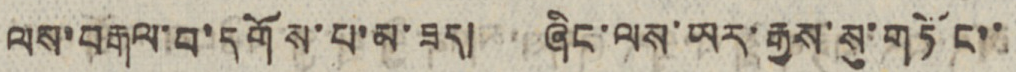ལས་བརྒལ་བ་དགོས་པ་མ་ཟད། ཞིང་ལས་ཡར་རྒྱས་སུ་གཏོང་་
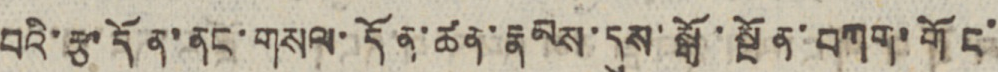པའི་རྩ་དོན་ནང་གསལ་དོན་ཚན་རྣམས་དུས་སྒོ་སྔོན་བཀག་གོང་
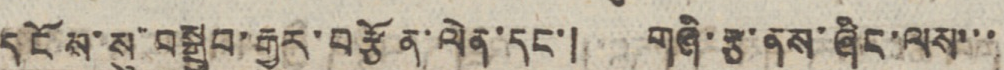དངོས་སུ་བསྒྲུབ་རྒྱུར་བརྩོན་ལེན་དང་། གཞི་རྩ་ནས་ཞིང་ལས་་་
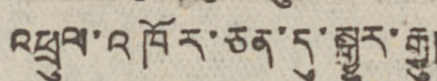འཕྲུལ་འཁོར་ཅན་དུ་སྒྱུར་རྒྱུ།
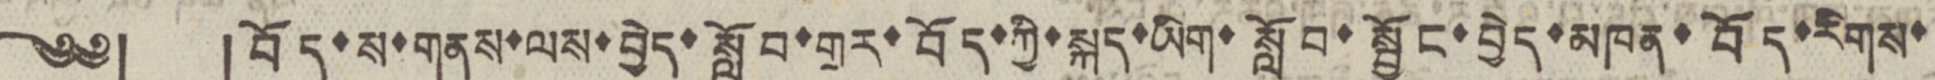༄༅། །བོད་ས་གནས་ལས་བྱེད་སློབ་གྲར་བོད་ཀྱི་སྐད་ཡིག་སློབ་སྦྱོང་བྱེད་མཁན་བོད་རིགས་
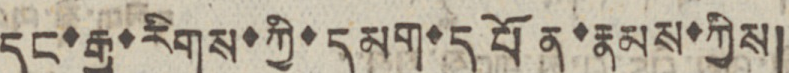དང་རྒྱ་རིགས་ཀྱི་དམག་དཔོན་རྣམས་ཀྱིས།
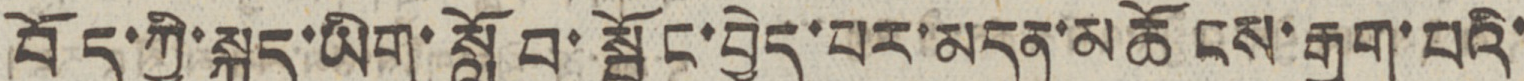བོད་ཀྱི་སྐད་ཡིག་སློབ་སྦྱོང་བྱེད་པར་མདུན་མཆོངས་རྒྱག་པའི་
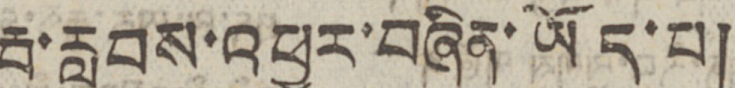རྦ་རླབས་འཕྱུར་བཞིན་ཡོད་པ།
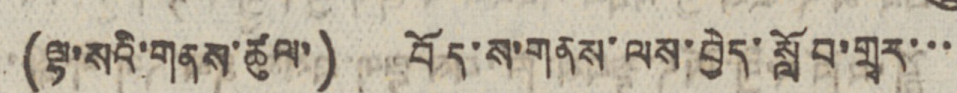(ལྷ་སའི་གནས་ཚུལ་) བོད་ས་གནས་ལས་བྱེད་སློབ་གྲྭར་་་
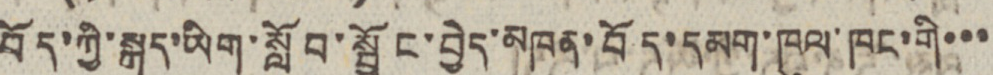བོད་ཀྱི་སྐད་ཡིག་སློབ་སྦྱོང་བྱེད་མཁན་བོད་དམག་ཁུལ་ཁང་གི་་་
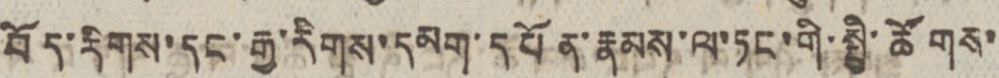བོད་རིགས་དང་རྒྱ་རིགས་དམག་དཔོན་རྣམས་ལ་ཏང་གི་སྤྱི་ཚོགས་
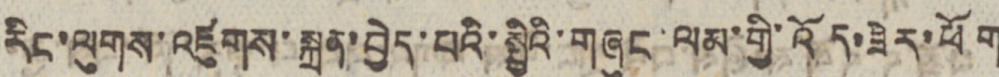རིང་ལུགས་འཛུགས་སྐྲུན་བྱེད་པའི་སྤྱིའི་གཞུང་ལམ་གྱི་འོད་ཟེར་ཕོག
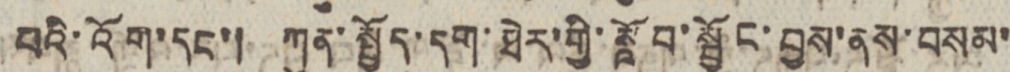པའི་འོག་དང་། ཀུན་སྤྱོད་དག་ཐེར་གྱི་སློབ་སྦྱོང་བྱས་ནས་བསམ་
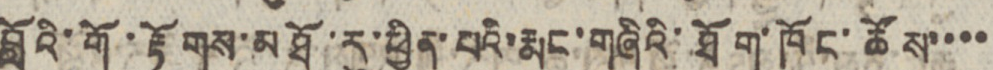བློའི་གོ་རྟོགས་མཐོ་རུ་ཕྱིན་པའི་རྨང་གཞིའི་ཐོག་ཁོང་ཚོས་་་་
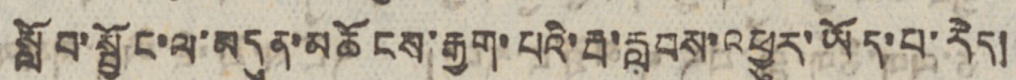སློབ་སྦྱོང་ལ་མདུན་མཆོངས་རྒྱག་པའི་རྦ་རླབས་འཕྱུར་ཡོད་པ་རེད།
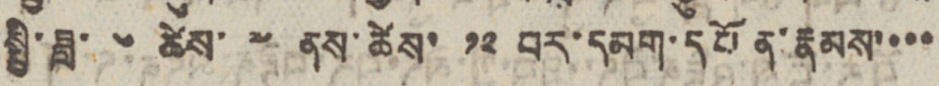སྤྱི་ཟླ་ ༦ ཚེས་ ༧ ནས་ཚེས་ ༡༢ བར་དམག་དཔོན་རྣམས་་་་
